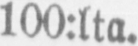100:lta.
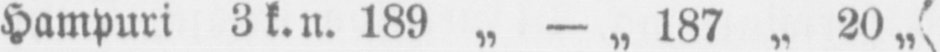Hampuri 3k. n. 189 „ —187˶20˶
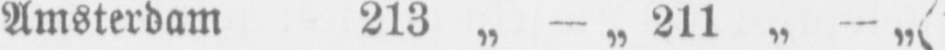Amsterdam 213 „ -˶211 „-˶
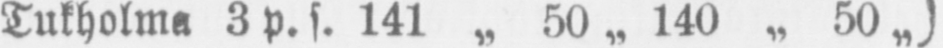Tukholma 3 p.s. 141 „ 50 „ 140 ˶50˶
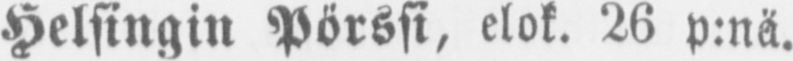Helsingin Pörssi, elok. 26 p:nä.
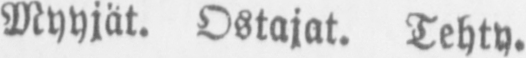Myyjät. Ostajat. Tehty.
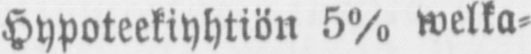Hypoteekiyhtiön 5% welka-
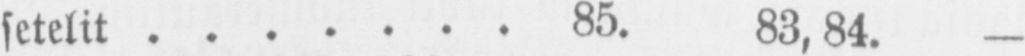setelit . . . . . . . 85. 83,84.—
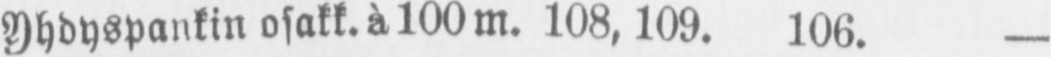Yhdyspankin osakk. à lOO m. 108,109. 106.—
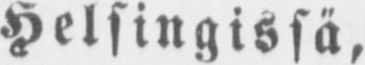Helsingissä,
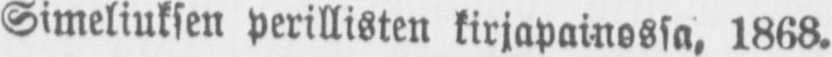I.Simeliuksen perillisten kirjapainossa. 1868.
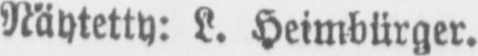Näytetty: L. Heimbürger.
